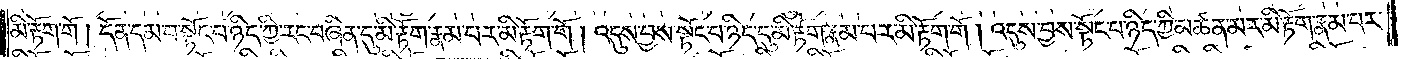མི་རྟོག་གོ །དོན་དམ་པ་སྟོང་པ་ཉིད་ཀྱི་རང་བཞིན་དུ་མི་རྟོག་རྣམ་པར་མི་རྟོག་གོ །འདུས་བྱས་སྟོང་པ་ཉིད་དུ་མི་རྟོག་རྣམ་པར་མི་རྟོག་གོ །འདུས་བྱས་སྟོང་པ་ཉིད་ཀྱི་མཚན་མར་མི་རྟོག་རྣམ་པར་
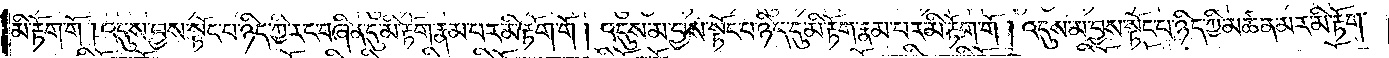མི་རྟོག་གོ །འདུས་བྱས་སྟོང་པ་ཉིད་ཀྱི་རང་བཞིན་དུ་མི་རྟོག་རྣམ་པར་མི་རྟོག་གོ །འདུས་མ་བྱས་སྟོང་པ་ཉིད་དུ་མི་རྟོག་རྣམ་པར་མི་རྟོག་གོ །འདུས་མ་བྱས་སྟོང་པ་ཉིད་ཀྱི་མཚན་མར་མི་རྟོག་
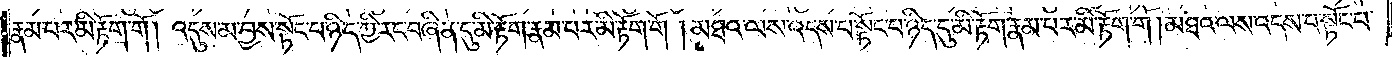རྣམ་པར་མི་རྟོག་གོ །འདུས་མ་བྱས་སྟོང་པ་ཉིད་ཀྱི་རང་བཞིན་དུ་མི་རྟོག་རྣམ་པར་མི་རྟོག་གོ །མཐའ་ལས་འདས་པ་སྟོང་པ་ཉིད་དུ་མི་རྟོག་རྣམ་པར་མི་རྟོག་གོ །མཐའ་ལས་འདས་པ་སྟོང་པ་
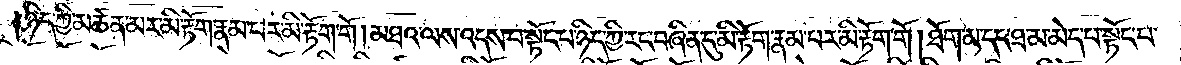ཉིད་ཀྱི་མཚན་མར་མི་རྟོག་རྣམ་པར་མི་རྟོག་གོ །མཐའ་ལས་འདས་པ་སྟོང་པ་ཉིད་ཀྱི་རང་བཞིན་དུ་མི་རྟོག་རྣམ་པར་མི་རྟོག་གོ །ཐོག་མ་དང་ཐ་མ་མེད་པ་སྟོང་པ་
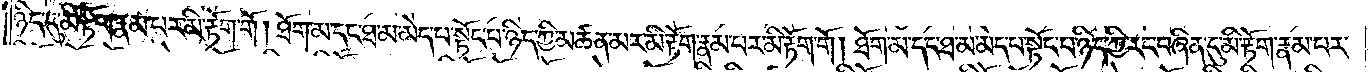ཉིད་དུ་མི་རྟོག་རྣམ་པར་མི་རྟོག་གོ །ཐོག་མ་དང་ཐ་མ་མེད་པ་སྟོང་པ་ཉིད་ཀྱི་མཚན་མར་མི་རྟོག་རྣམ་པར་མི་རྟོག་གོ །ཐོག་མ་དང་ཐ་མ་མེད་པ་སྟོང་པ་ཉིད་ཀྱི་རང་བཞིན་དུ་མི་རྟོག་རྣམ་པར་
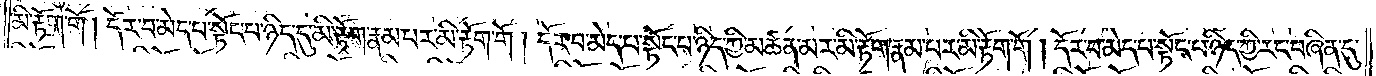མི་རྟོག་གོ །དོར་བ་མེད་པ་སྟོང་པ་ཉིད་དུ་མི་རྟོག་རྣམ་པར་མི་རྟོག་གོ །དོར་བ་མེད་པ་སྟོང་པ་ཉིད་ཀྱི་མཚན་མར་མི་རྟོག་རྣམ་པར་མི་རྟོག་གོ །དོར་བ་མེད་པ་སྟོང་པ་ཉིད་ཀྱི་རང་བཞིན་དུ་
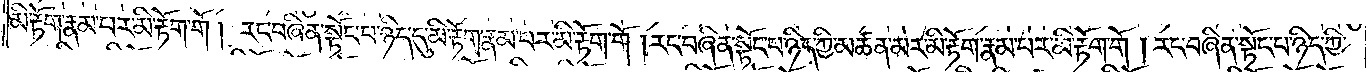མི་རྟོག་རྣམ་པར་མི་རྟོག་གོ །རང་བཞིན་སྟོང་པ་ཉིད་དུ་མི་རྟོག་རྣམ་པར་མི་རྟོག་གོ །རང་བཞིན་སྟོང་པ་ཉིད་ཀྱི་མཚན་མར་མི་རྟོག་རྣམ་པར་མི་རྟོག་གོ །རང་བཞིན་སྟོང་པ་ཉིད་ཀྱི་
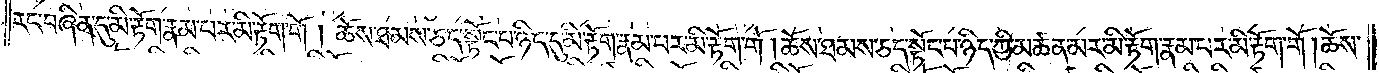རང་བཞིན་དུ་མི་རྟོག་རྣམ་པར་མི་རྟོག་གོ །ཆོས་ཐམས་ཅད་སྟོང་པ་ཉིད་དུ་མི་རྟོག་རྣམ་པར་མི་རྟོག་གོ །ཆོས་ཐམས་ཅད་སྟོང་པ་ཉིད་ཀྱི་མཚན་མར་མི་རྟོག་རྣམ་པར་མི་རྟོག་གོ །ཆོས་
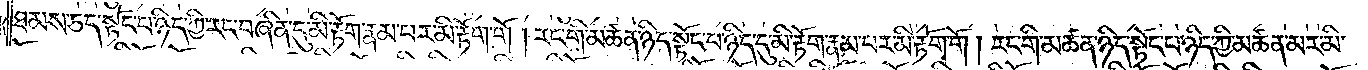ཐམས་ཅད་སྟོང་པ་ཉིད་ཀྱི་རང་བཞིན་དུ་མི་རྟོག་རྣམ་པར་མི་རྟོག་གོ །རང་གི་མཚན་ཉིད་སྟོང་པ་ཉིད་དུ་མི་རྟོག་རྣམ་པར་མི་རྟོག་གོ །རང་གི་མཚན་ཉིད་སྟོང་པ་ཉིད་ཀྱི་མཚན་མར་མི་
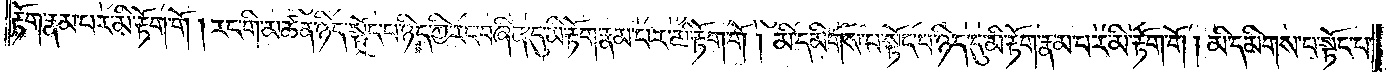རྟོག་རྣམ་པར་མི་རྟོག་གོ །རང་གི་མཚན་ཉིད་སྟོང་པ་ཉིད་ཀྱི་རང་བཞིན་དུ་མི་རྟོག་རྣམ་པར་མི་རྟོག་གོ །མི་དམིགས་པ་སྟོང་པ་ཉིད་དུ་མི་རྟོག་རྣམ་པར་མི་རྟོག་གོ །མི་དམིགས་པ་སྟོང་པ་
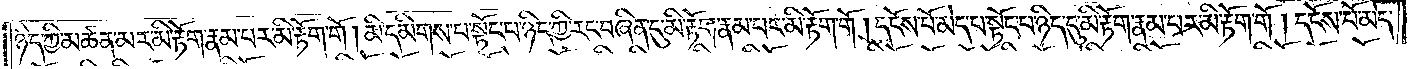ཉིད་ཀྱི་མཚན་མར་མི་རྟོག་རྣམ་པར་མི་རྟོག་གོ །མི་དམིགས་པ་སྟོང་པ་ཉིད་ཀྱི་རང་བཞིན་དུ་མི་རྟོག་རྣམ་པར་མི་རྟོག་གོ །དངོས་པོ་མེད་པ་སྟོང་པ་ཉིད་དུ་མི་རྟོག་རྣམ་པར་མི་རྟོག་གོ །དངོས་པོ་མེད་
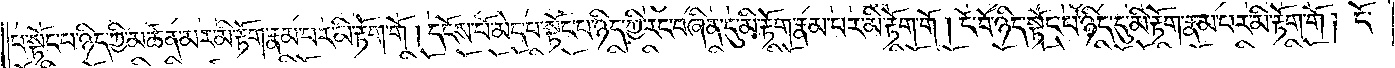པ་སྟོང་པ་ཉིད་ཀྱི་མཚན་མར་མི་རྟོག་རྣམ་པར་མི་རྟོག་གོ །དངོས་པོ་མེད་པ་སྟོང་པ་ཉིད་ཀྱི་རང་བཞིན་དུ་མི་རྟོག་རྣམ་པར་མི་རྟོག་གོ །ངོ་བོ་ཉིད་སྟོང་པ་ཉིད་དུ་མི་རྟོག་རྣམ་པར་མི་རྟོག་གོ །ངོ་
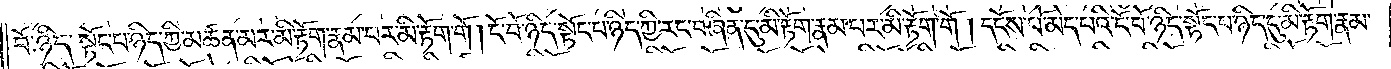བོ་ཉིད་སྟོང་པ་ཉིད་ཀྱི་མཚན་མར་མི་རྟོག་རྣམ་པར་མི་རྟོག་གོ །ངོ་བོ་ཉིད་སྟོང་པ་ཉིད་ཀྱི་རང་བཞིན་དུ་མི་རྟོག་རྣམ་པར་མི་རྟོག་གོ །དངོས་པོ་མེད་པའི་ངོ་བོ་ཉིད་སྟོང་པ་ཉིད་དུ་མི་རྟོག་རྣམ་
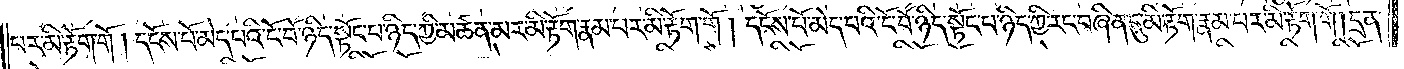པར་མི་རྟོག་གོ །དངོས་པོ་མེད་པའི་ངོ་བོ་ཉིད་སྟོང་པ་ཉིད་ཀྱི་མཚན་མར་མི་རྟོག་རྣམ་པར་མི་རྟོག་གོ །དངོས་པོ་མེད་པའི་ངོ་བོ་ཉིད་སྟོང་པ་ཉིད་ཀྱི་རང་བཞིན་དུ་མི་རྟོག་རྣམ་པར་མི་རྟོག་གོ །དྲན་
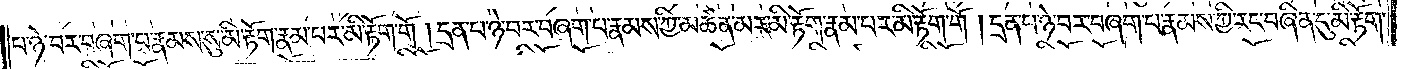པ་ཉེ་བར་བཞག་པ་རྣམས་སུ་མི་རྟོག་རྣམ་པར་མི་རྟོག་གོ །དྲན་པ་ཉེ་བར་བཞག་བ་རྣམས་ཀྱི་མཚན་མར་མི་རྟོག་རྣམ་པར་མི་རྟོག་གོ །དྲན་པ་ཉེ་བར་བཞག་པ་རྣམས་ཀྱི་རང་བཞིན་དུ་མི་རྟོག་
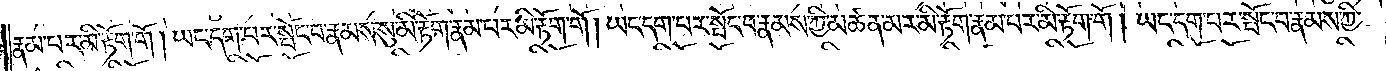རྣམ་པར་མི་རྟོག་གོ །ཡང་དག་པར་སྤོང་བ་རྣམས་སུ་མི་རྟོག་རྣམ་པར་མི་རྟོག་གོ །ཡང་དག་པར་སྤོང་བ་རྣམས་ཀྱི་མཚན་མར་མི་རྟོག་རྣམ་པར་མི་རྟོག་གོ །ཡང་དག་པར་སྤོང་བ་རྣམས་ཀྱི་
